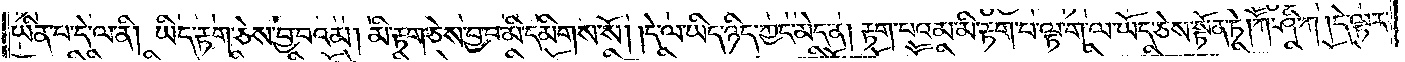ཡིན་པ་དེ་ལ་ནི། ཡིད་རྟག་ཅེས་བྱ་བའམ། མི་རྟག་ཅེས་བྱ་བ་མི་དམིགས་སོ། །དེ་ལ་ཡིད་ཉིད་ཀྱང་མེད་ན། རྟག་པའམ་མི་རྟག་པ་ལྟ་ག་ལ་ཡོད་ཅེས་སྟོན་ཏེ། ཀཽ་ཤི་ཀ། དེ་ལྟར་
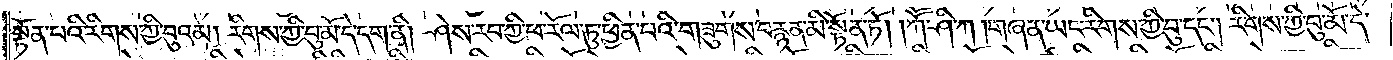སྟོན་པའི་རིགས་ཀྱི་བུའམ། རིགས་ཀྱི་བུ་མོ་དེ་དག་ནི། ཤེས་རབ་ཀྱི་ཕ་རོལ་ཏུ་ཕྱིན་པའི་གཟུགས་བརྙན་མི་སྟོན་ཏོ། །ཀཽ་ཤི་ཀ། གཞན་ཡང་རིགས་ཀྱི་བུ་དང༌། རིགས་ཀྱི་བུ་མོ་དེ་
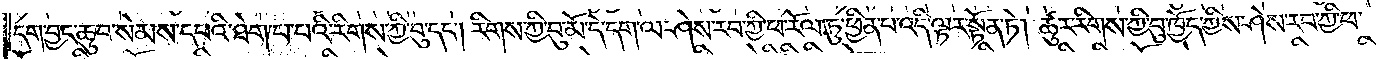དག་བྱང་ཆུབ་སེམས་དཔའི་ཐེག་པ་པའི་རིགས་ཀྱི་བུ་དང༌། རིགས་ཀྱི་བུ་མོ་དེ་དག་ལ་ཤེས་རབ་ཀྱི་ཕ་རོལ་ཏུ་ཕྱིན་པ་འདི་ལྟར་སྟོན་ཏེ། ཚུར་རིགས་ཀྱི་བུ་ཁྱོད་ཀྱིས་ཤེས་རབ་ཀྱི་ཕ་
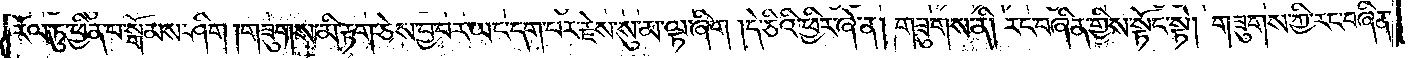རོལ་ཏུ་ཕྱིན་པ་སྒོམས་ཤིག །གཟུགས་མི་རྟག་ཅེས་བྱ་བར་ཡང་དག་པར་རྗེས་སུ་མ་ལྟ་ཞིག །དེ་ཅིའི་ཕྱིར་ཞེ་ན། གཟུགས་ནི། རང་བཞིན་གྱིས་སྟོང་སྟེ། གཟུགས་ཀྱི་རང་བཞིན་
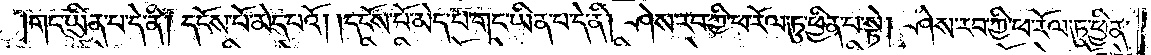གང་ཡིན་པ་དེ་ནི། དངོས་པོ་མེད་པའོ། །དངོས་པོ་མེད་པ་གང་ཡིན་པ་དེ་ནི། ཤེས་རབ་ཀྱི་ཕ་རོལ་ཏུ་ཕྱིན་པ་སྟེ། ཤེས་རབ་ཀྱི་ཕ་རོལ་ཏུ་ཕྱིན་
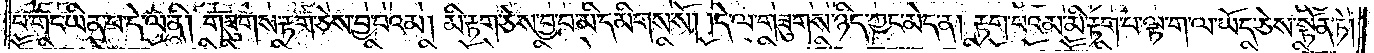པ་གང་ཡིན་པ་དེ་ལ་ནི། གཟུགས་རྟག་ཅེས་བྱ་བའམ། མི་རྟག་ཅེས་བྱ་བ་མི་དམིགས་སོ། །དེ་ལ་གཟུགས་ཉིད་ཀྱང་མེད་ན། རྟག་པའམ་མི་རྟག་པ་ལྟ་ག་ལ་ཡོད་ཅེས་སྟོན་ཏེ།
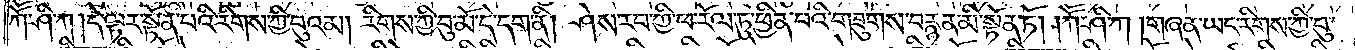ཀཽ་ཤི་ཀ། དེ་ལྟར་སྟོན་པའི་རིགས་ཀྱི་བུའམ། རིགས་ཀྱི་བུ་མོ་དེ་དག་ནི། ཤེས་རབ་ཀྱི་ཕ་རོལ་ཏུ་ཕྱིན་པའི་གཟུགས་བརྙན་མི་སྟོན་ཏོ། །ཀཽ་ཤི་ཀ། གཞན་ཡང་རིགས་ཀྱི་བུ་
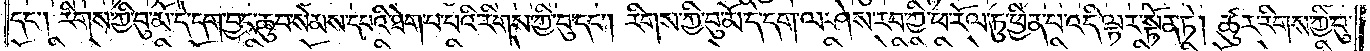དང༌། རིགས་ཀྱི་བུ་མོ་དེ་དག་བྱང་ཆུབ་སེམས་དཔའི་ཐེག་པ་པའི་རིགས་ཀྱི་བུ་དང༌། རིགས་ཀྱི་བུ་མོ་དེ་དག་ལ་ཤེས་རབ་ཀྱི་ཕ་རོལ་ཏུ་ཕྱིན་པ་འདི་ལྟར་སྟོན་ཏེ། ཚུར་རིགས་ཀྱི་བུ་
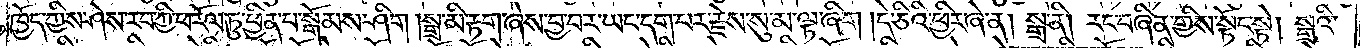ཁྱོད་ཀྱིས་ཤེས་རབ་ཀྱི་ཕ་རོལ་ཏུ་ཕྱིན་པ་སྒོམས་ཤིག །སྒྲ་མི་རྟག་ཞེས་བྱ་བར་ཡང་དག་པར་རྗེས་སུ་མ་ལྟ་ཞིག །དེ་ཅིའི་ཕྱིར་ཞེ་ན། སྒྲ་ནི། རང་བཞིན་གྱིས་སྟོང་སྟེ། སྒྲའི་
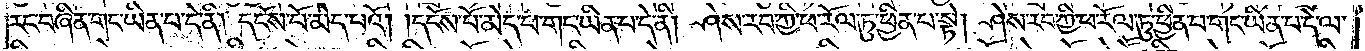རང་བཞིན་གང་ཡིན་པ་དེ་ནི། དངོས་པོ་མེད་པའོ། །དངོས་པོ་མེད་པ་གང་ཡིན་པ་དེ་ནི། ཤེས་རབ་ཀྱི་ཕ་རོལ་ཏུ་ཕྱིན་པ་སྟེ། ཤེས་རབ་ཀྱི་ཕ་རོལ་ཏུ་ཕྱིན་པ་གང་ཡིན་པ་དེ་ལ་
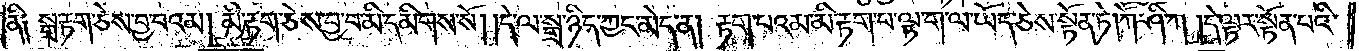ནི༑ སྒྲ་རྟག་ཅེས་བྱ་བའམ། མི་རྟག་ཅེས་བྱ་བ་མི་དམིགས་སོ། །དེ་ལ་སྒྲ་ཉིད་ཀྱང་མེད་ན། རྟག་པའམ་མི་རྟག་པ་ལྟ་ག་ལ་ཡོད་ཅེས་སྟོན་ཏེ། ཀཽ་ཤི་ཀ། དེ་ལྟར་སྟོན་པའི་
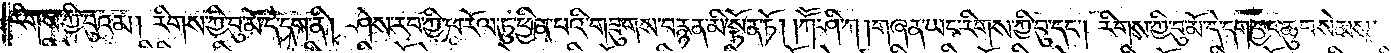རིགས་ཀྱི་བུའམ། རིགས་ཀྱི་བུ་མོ་དེ་དག་ནི། ཤེས་རབ་ཀྱི་ཕ་རོལ་ཏུ་ཕྱིན་པའི་གཟུགས་བརྙན་མི་སྟོན་ཏོ། །ཀཽ་ཤི་ཀ། གཞན་ཡང་རིགས་ཀྱི་བུ་དང༌། རིགས་ཀྱི་བུ་མོ་དེ་དག་བྱང་ཆུབ་སེམས་
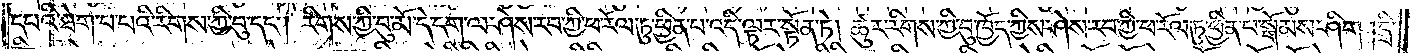དཔའི་ཐེག་པ་པའི་རིགས་ཀྱི་བུ་དང༌། རིགས་ཀྱི་བུ་མོ་དེ་དག་ལ་ཤེས་རབ་ཀྱི་ཕ་རོལ་ཏུ་ཕྱིན་པ་འདི་ལྟར་སྟོན་ཏེ། ཚུར་རིགས་ཀྱི་བུ་ཁྱོད་ཀྱིས་ཤེས་རབ་ཀྱི་ཕ་རོལ་ཏུ་ཕྱིན་པ་སྒོམས་ཤིག །དྲི་
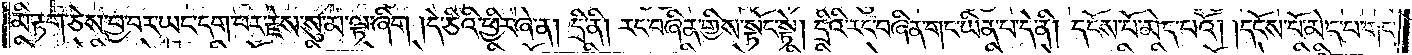མི་རྟག་ཅེས་བྱ་བར་ཡང་དག་པར་རྗེས་སུ་མ་ལྟ་ཞིག །དེ་ཅིའི་ཕྱིར་ཞེ་ན། དྲི་ནི། རང་བཞིན་གྱིས་སྟོང་སྟེ། དྲིའི་རང་བཞིན་གང་ཡིན་པ་དེ་ནི། དངོས་པོ་མེད་པའོ། །དངོས་པོ་མེད་པ་གང་
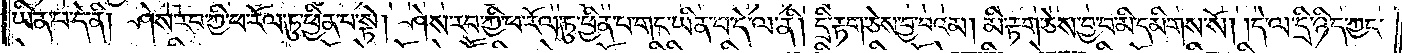ཡིན་པ་དེ་ནི། ཤེས་རབ་ཀྱི་ཕ་རོལ་ཏུ་ཕྱིན་པ་སྟེ། ཤེས་རབ་ཀྱི་ཕ་རོལ་ཏུ་ཕྱིན་པ་གང་ཡིན་པ་དེ་ལ་ནི། དྲི་རྟག་ཅེས་བྱ་བའམ། མི་རྟག་ཅེས་བྱ་བ་མི་དམིགས་སོ། །དེ་ལ་དྲི་ཉིད་ཀྱང་
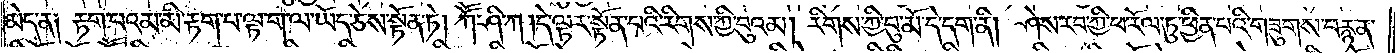མེད་ན༑ རྟག་པའམ་མི་རྟག་པ་ལྟ་ག་ལ་ཡོད་ཅེས་སྟོན་ཏེ། ཀཽ་ཤི་ཀ །དེ་ལྟར་སྟོན་པའི་རིགས་ཀྱི་བུའམ། རིགས་ཀྱི་བུ་མོ་དེ་དག་ནི། ཤེས་རབ་ཀྱི་ཕ་རོལ་ཏུ་ཕྱིན་པའི་གཟུགས་བརྙན་
